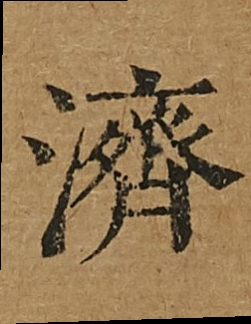濟
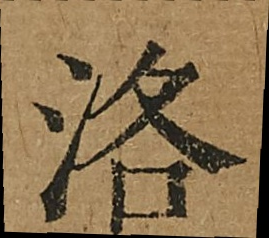洛
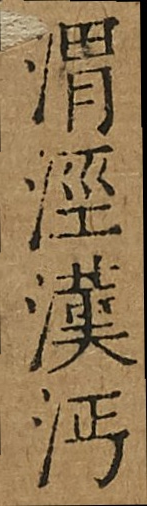渭涇漢沔
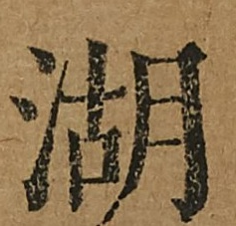湖
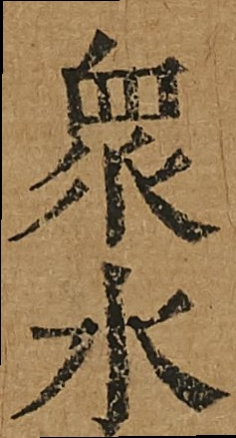衆水
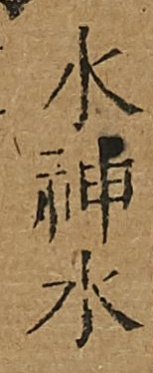水神水
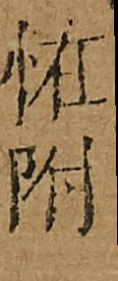惟附
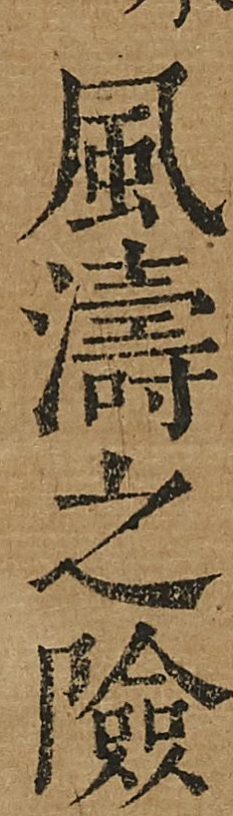風濤之險
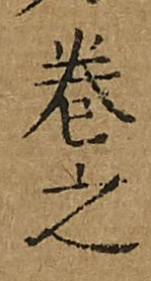卷之
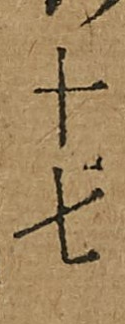十七
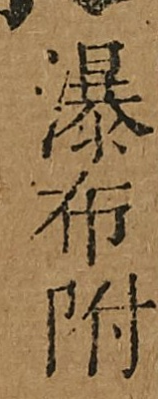瀑布附
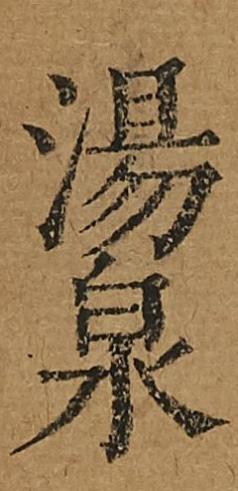湯泉
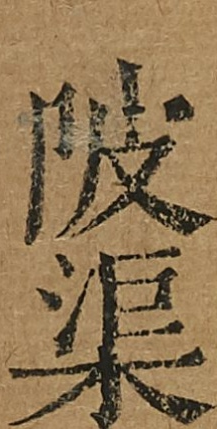陂渠
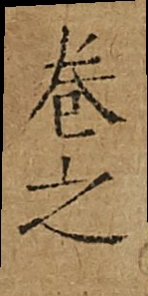卷之
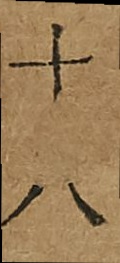十八
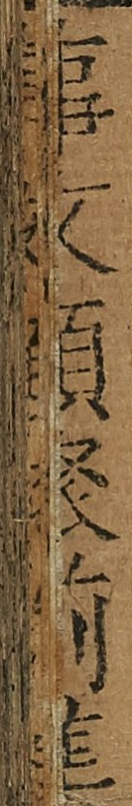事文類聚前集
